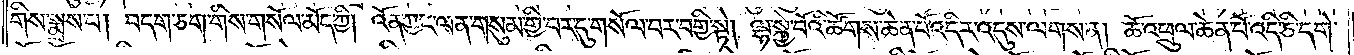གིས་སྨྲས་པ། བདག་ཅག་གིས་གསོལ་མོད་ཀྱི། འོན་ཀྱང་ལན་གསུམ་གྱི་བར་དུ་གསོལ་བར་བགྱི་སྟེ། ལྷ་སྐྱེ་བོའི་ཚོགས་ཆེན་པོ་འདིར་འདུས་ལགས་ན། ཆོ་འཕྲུལ་ཆེན་པོ་འདི་ཅི་དགེ་
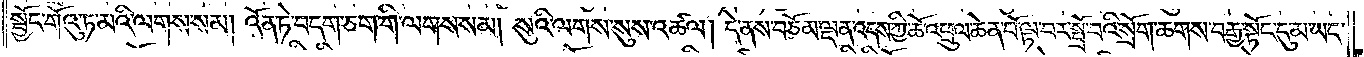སྦྱོང་གོའུ་ཏ་མའི་ལགས་སམ། འོན་ཏེ་བདག་ཅག་གི་ལགས་སམ། སུའི་ལགས་སུས་འཚལ། དེ་ནས་བཅོམ་ལྡན་འདས་ཀྱི་ཆོ་འཕྲུལ་ཆེན་པོ་ལྟ་བར་སྤྲོ་བའི་སྲོག་ཆགས་བརྒྱ་སྟོང་དུམ་ཡང་
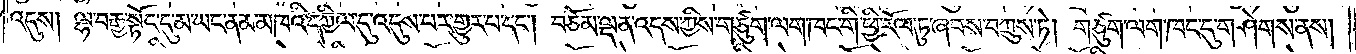འདུས། ལྷ་བརྒྱ་སྟོང་དུ་མ་ཡང་ནམ་མཁའི་དཀྱིལ་དུ་འདུས་པར་གྱུར་པ་དང༌། བཅོམ་ལྡན་འདས་ཀྱིས་གཙུག་ལག་ཁང་གི་ཕྱི་རོལ་ཏུ་ཞབས་བཀྲུས་ཏེ། གཙུག་ལག་ཁང་དུ་གཤེགས་ནས།
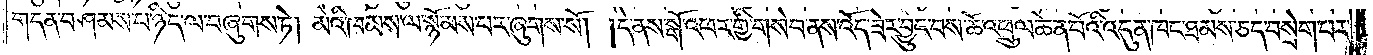གདན་བཤམས་པ་ཉིད་ལ་བཞུགས་ཏེ། མེའི་ཁམས་ལ་སྙོམས་པར་ཞུགས་སོ། །དེ་ནས་སྒོ་འཕར་གྱི་གསེབ་ནས་འོད་ཟེར་བྱུང་བས་ཆོ་འཕྲུལ་ཆེན་པོའི་འདུན་ཁང་ཐམས་ཅད་བསྲེག་པར་
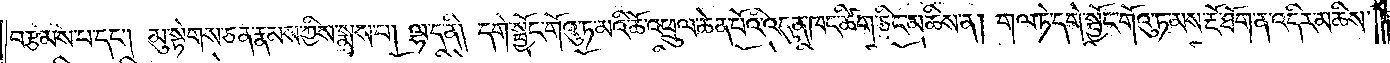བརྩམས་པ་དང༌། མུ་སྟེགས་ཅན་རྣམས་ཀྱིས་སྨྲས་པ། ལྷ་ད་ནི། དགེ་སྦྱོང་གོའུ་ཏ་མའི་ཆོ་འཕྲུལ་ཆེན་པོའི་འདུན་ཁང་ཚིག་ཅིང་མཆིས་ན། གལ་ཏེ་དགེ་སྦྱོང་གོའུ་ཏ་མས་རྔོ་ཐོག་ན་འདིར་མཆིས་
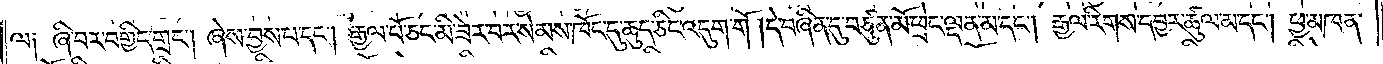ལ༑ ཞི་བར་བགྱིད་གྲང༌། ཞེས་བྱས་པ་དང༌། རྒྱལ་པོ་ཅང་མི་ཟེར་བར་སེམས་ཁོང་དུ་ཆུད་ཅིང་འདུག་གོ །དེ་བཞིན་དུ་བཙུན་མོ་ཕྲེང་ལྡན་མ་དང༌། རྒྱལ་རིགས་དབྱར་ཚུལ་མ་དང༌། ཕྱ་མཁན་
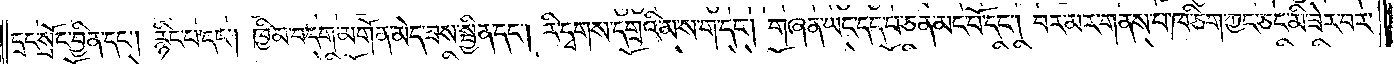དྲང་སྲོང་བྱིན་དང༌། རྙིང་པ་དང༌། ཁྱིམ་བདག་མགོན་མེད་ཟས་སྦྱིན་དང༌། རི་དྭགས་དགྲའི་མ་ས་ག་དང༌། གཞན་ཡང་དད་པ་ཅན་མང་པོ་དང༌། བར་མར་གནས་པ་ཁ་ཅིག་ཀྱང་ཅང་མི་ཟེར་བར་
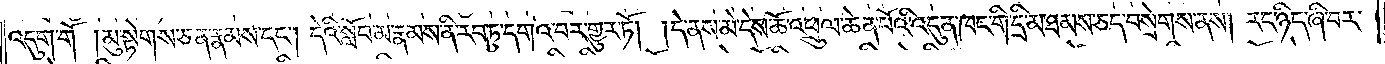འདུག་གོ །མུ་སྟེགས་ཅན་རྣམས་དང༌། དེའི་སློབ་མ་རྣམས་ནི་རབ་ཏུ་དགའ་བར་གྱུར་ཏོ། །དེ་ནས་མེ་དེས་ཆོ་འཕྲུལ་ཆེན་པོའི་འདུན་ཁང་གི་དྲི་མ་ཐམས་ཅད་བསྲེགས་ནས། རང་ཉིད་ཞི་བར་
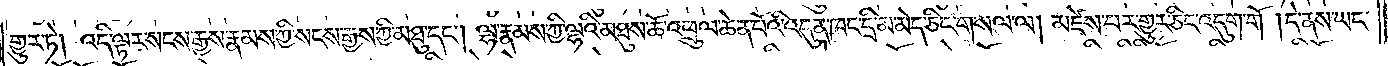གྱུར་ཏེ། འདི་ལྟར་སངས་རྒྱས་རྣམས་ཀྱི་སངས་རྒྱས་ཀྱི་མཐུ་དང༌། ལྷ་རྣམས་ཀྱི་ལྷའི་མཐུས་ཆོ་འཕྲུལ་ཆེན་པོའི་འདུན་ཁང་དྲི་མ་མེད་ཅིང་གསལ་ལ། མཛེས་པར་གྱུར་ཅིང་འདུག་གོ །དེ་ནས་ཡང་
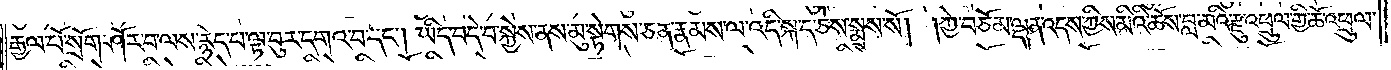རྒྱལ་པོ་སྲོག་ཤོར་བ་ལས་རྙེད་པ་ལྟ་བུར་དགའ་བ་དང༌། ཡིད་བདེ་བ་སྐྱེས་ནས་མུ་སྟེགས་ཅན་རྣམས་ལ་འདི་སྐད་ཅེས་སྨྲས་སོ། །ཀྱེ་བཅོམ་ལྡན་འདས་ཀྱིས་མིའི་ཆོས་བླ་མའི་རྫུ་འཕྲུལ་གྱི་ཆོ་འཕྲུལ་
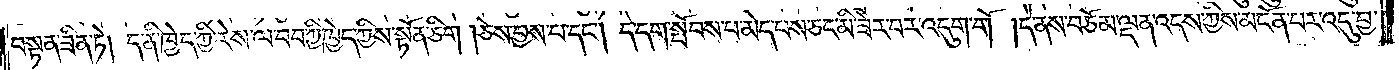བསྟན་ཟིན་ཏེ། ད་ནི་ཁྱེད་ཀྱི་རེས་ལ་བབ་ཀྱི་ཁྱེད་ཀྱིས་སྟོན་ཅིག །ཅེས་བྱས་པ་དང༌། དེ་དག་སྤོབས་པ་མེད་པས་ཅང་མི་ཟེར་བར་འདུག་གོ །དེ་ནས་བཅོམ་ལྡན་འདས་ཀྱིས་མངོན་པར་འདུ་བྱ་
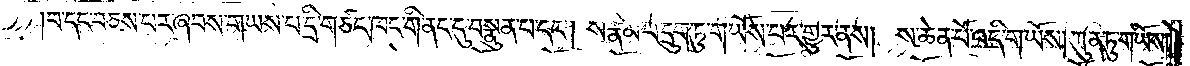བ་དང་བཅས་པར་ཞབས་གཡས་པ་དྲི་གཙང་ཁང་གི་ནང་དུ་བསྣུན་པ་དང༌། ས་རྣམ་པ་དྲུག་ཏུ་གཡོས་པར་གྱུར་ནས། ས་ཆེན་པོ་འདི་གཡོས། ཀུན་ཏུ་གཡོས།
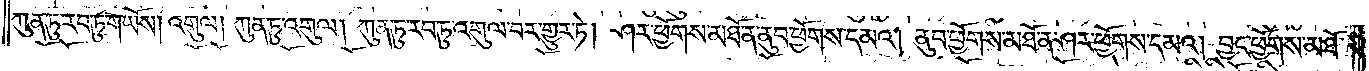ཀུན་ཏུ་རབ་ཏུ་གཡོས། འགུལ། ཀུན་ཏུ་འགུལ། ཀུན་ཏུ་རབ་ཏུ་འགུལ་བར་གྱུར་ཏེ། ཤར་ཕྱོགས་མཐོ་ན་ནུབ་ཕྱོགས་དམའ། ནུབ་ཕྱོགས་མཐོ་ན་ཤར་ཕྱོགས་དམའ། བྱང་ཕྱོགས་མཐོ་
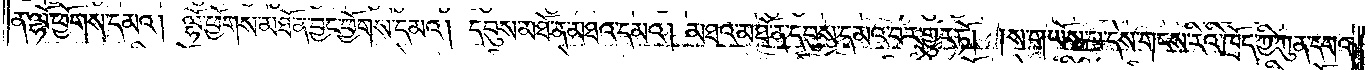ན་ལྷོ་ཕྱོགས་དམའ། ལྷོ་ཕྱོགས་མཐོ་ན་བྱང་ཕྱོགས་དམའ། དབུས་མཐོ་ན་མཐའ་དམའ། མཐའ་མཐོ་ན་དབུས་དམའ་བར་གྱུར་ཏོ། །ས་གཡོས་པ་དེས་གངས་རེའི་ཁྲོད་ཀྱི་ཀུན་དགའ་
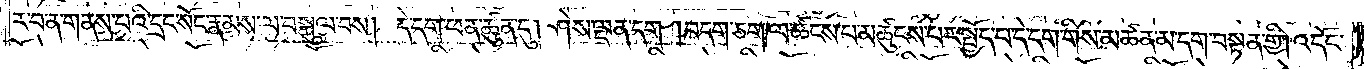ར་བ་ན་གནས་པའི་དྲང་སོང་རྣམས་ལ་བསྐུལ་བས། དེ་དག་ཕན་ཚུན་དུ། ཤེས་ལྡན་དག །བདག་ཅག་ལ་ཚངས་པ་མཚུངས་པར་སྤྱོད་པ་དེ་དག་གིས་མཚན་མ་དག་བསྟན་གྱི། འདོང་
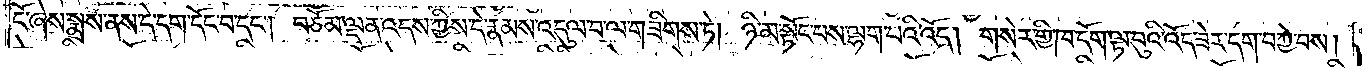ངོ་ཞེས་སྨྲས་ནས་དེ་དག་དོང་བ་དང༌། བཅོམ་ལྡན་འདས་ཀྱིས་དེ་རྣམས་འདུལ་བ་ལ་གཟིགས་ཏེ། ཉི་མ་སྟོང་པས་ལྷག་པའི་འོད། གསེར་གྱི་ཁ་དོག་ལྟ་བུའི་འོད་ཟེར་དག་བ་ཀྱེ་བས།
